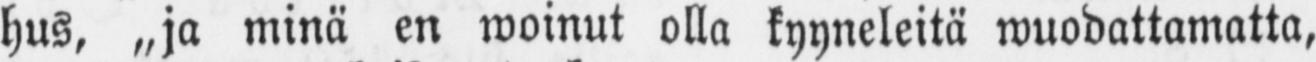hus, „ja minä en woinut olla kyyneleitä wuodattamatta,
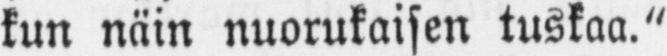kun näin nuorukaisen tuskaa."
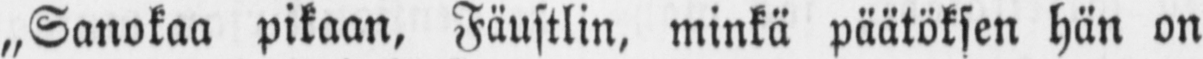„Sanokaa pikaan, Fäustlin, minkä päätöksen hän on
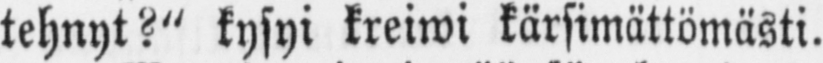tehnyt?" kysyi kreiwi kärsimättömästi.
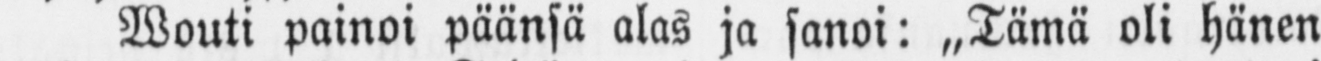Wouti painoi päänsä alas ja sanoi: „Tämä oli hänen
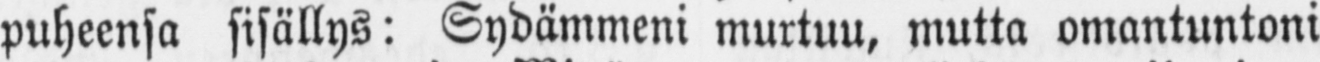puheensa sisällys: Sydämmeni murtuu, mutta omantuntoni
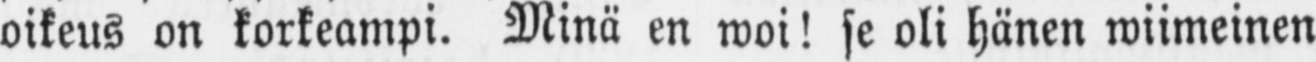oikeus on korkeampi. Minä en woi! se oli hänen wiimeinen
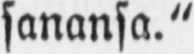sanansa."
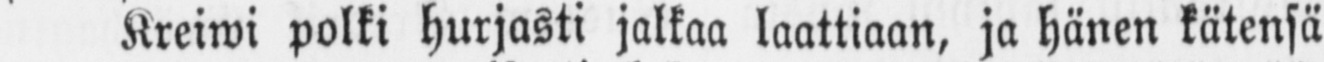Kreiwi polki hurjasti jalkaa laattiaan, ja hänen kätensä
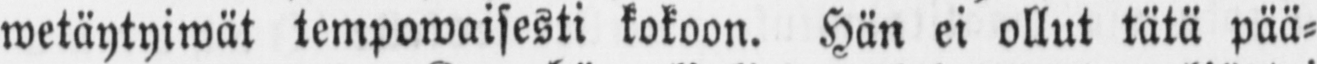wetäytyiwät tempowaisesti kokoon. Hän ei ollut tätä pää-
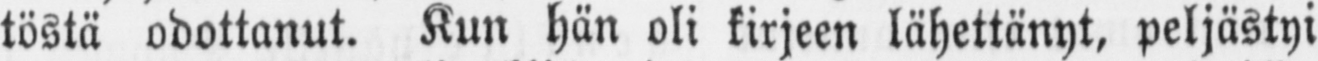töstä odottanut. Kun hän oli kirjeen lähettänyt, peljästyi
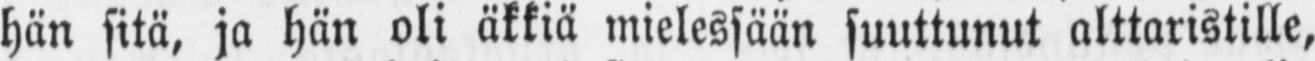hän sitä, ja hän oli äkkiä mielessään suuttunut alttaristille,
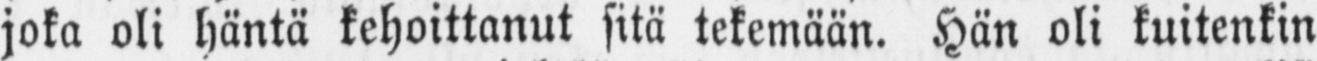joka oli häntä kehoittanut sitä tekemään. Hän oli kuitenkin
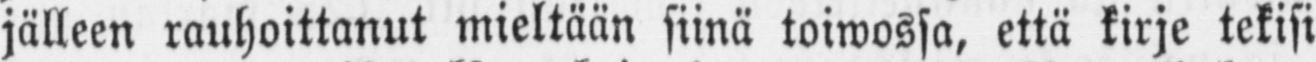jälleen rauhoittanut mieltään siinä toiwossa, että kirje tekisi
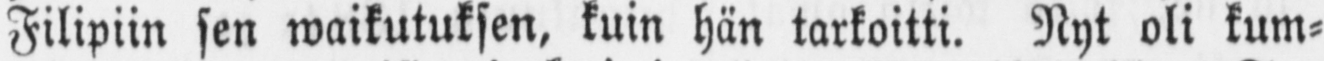Filipiin sen waikutuksen, kuin hän tarkoitti. Nyt oli kum-
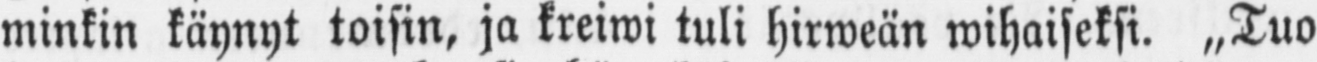minkin käynyt toisin, ja kreiwi tuli hirweän wihaiseksi. „Tuo
